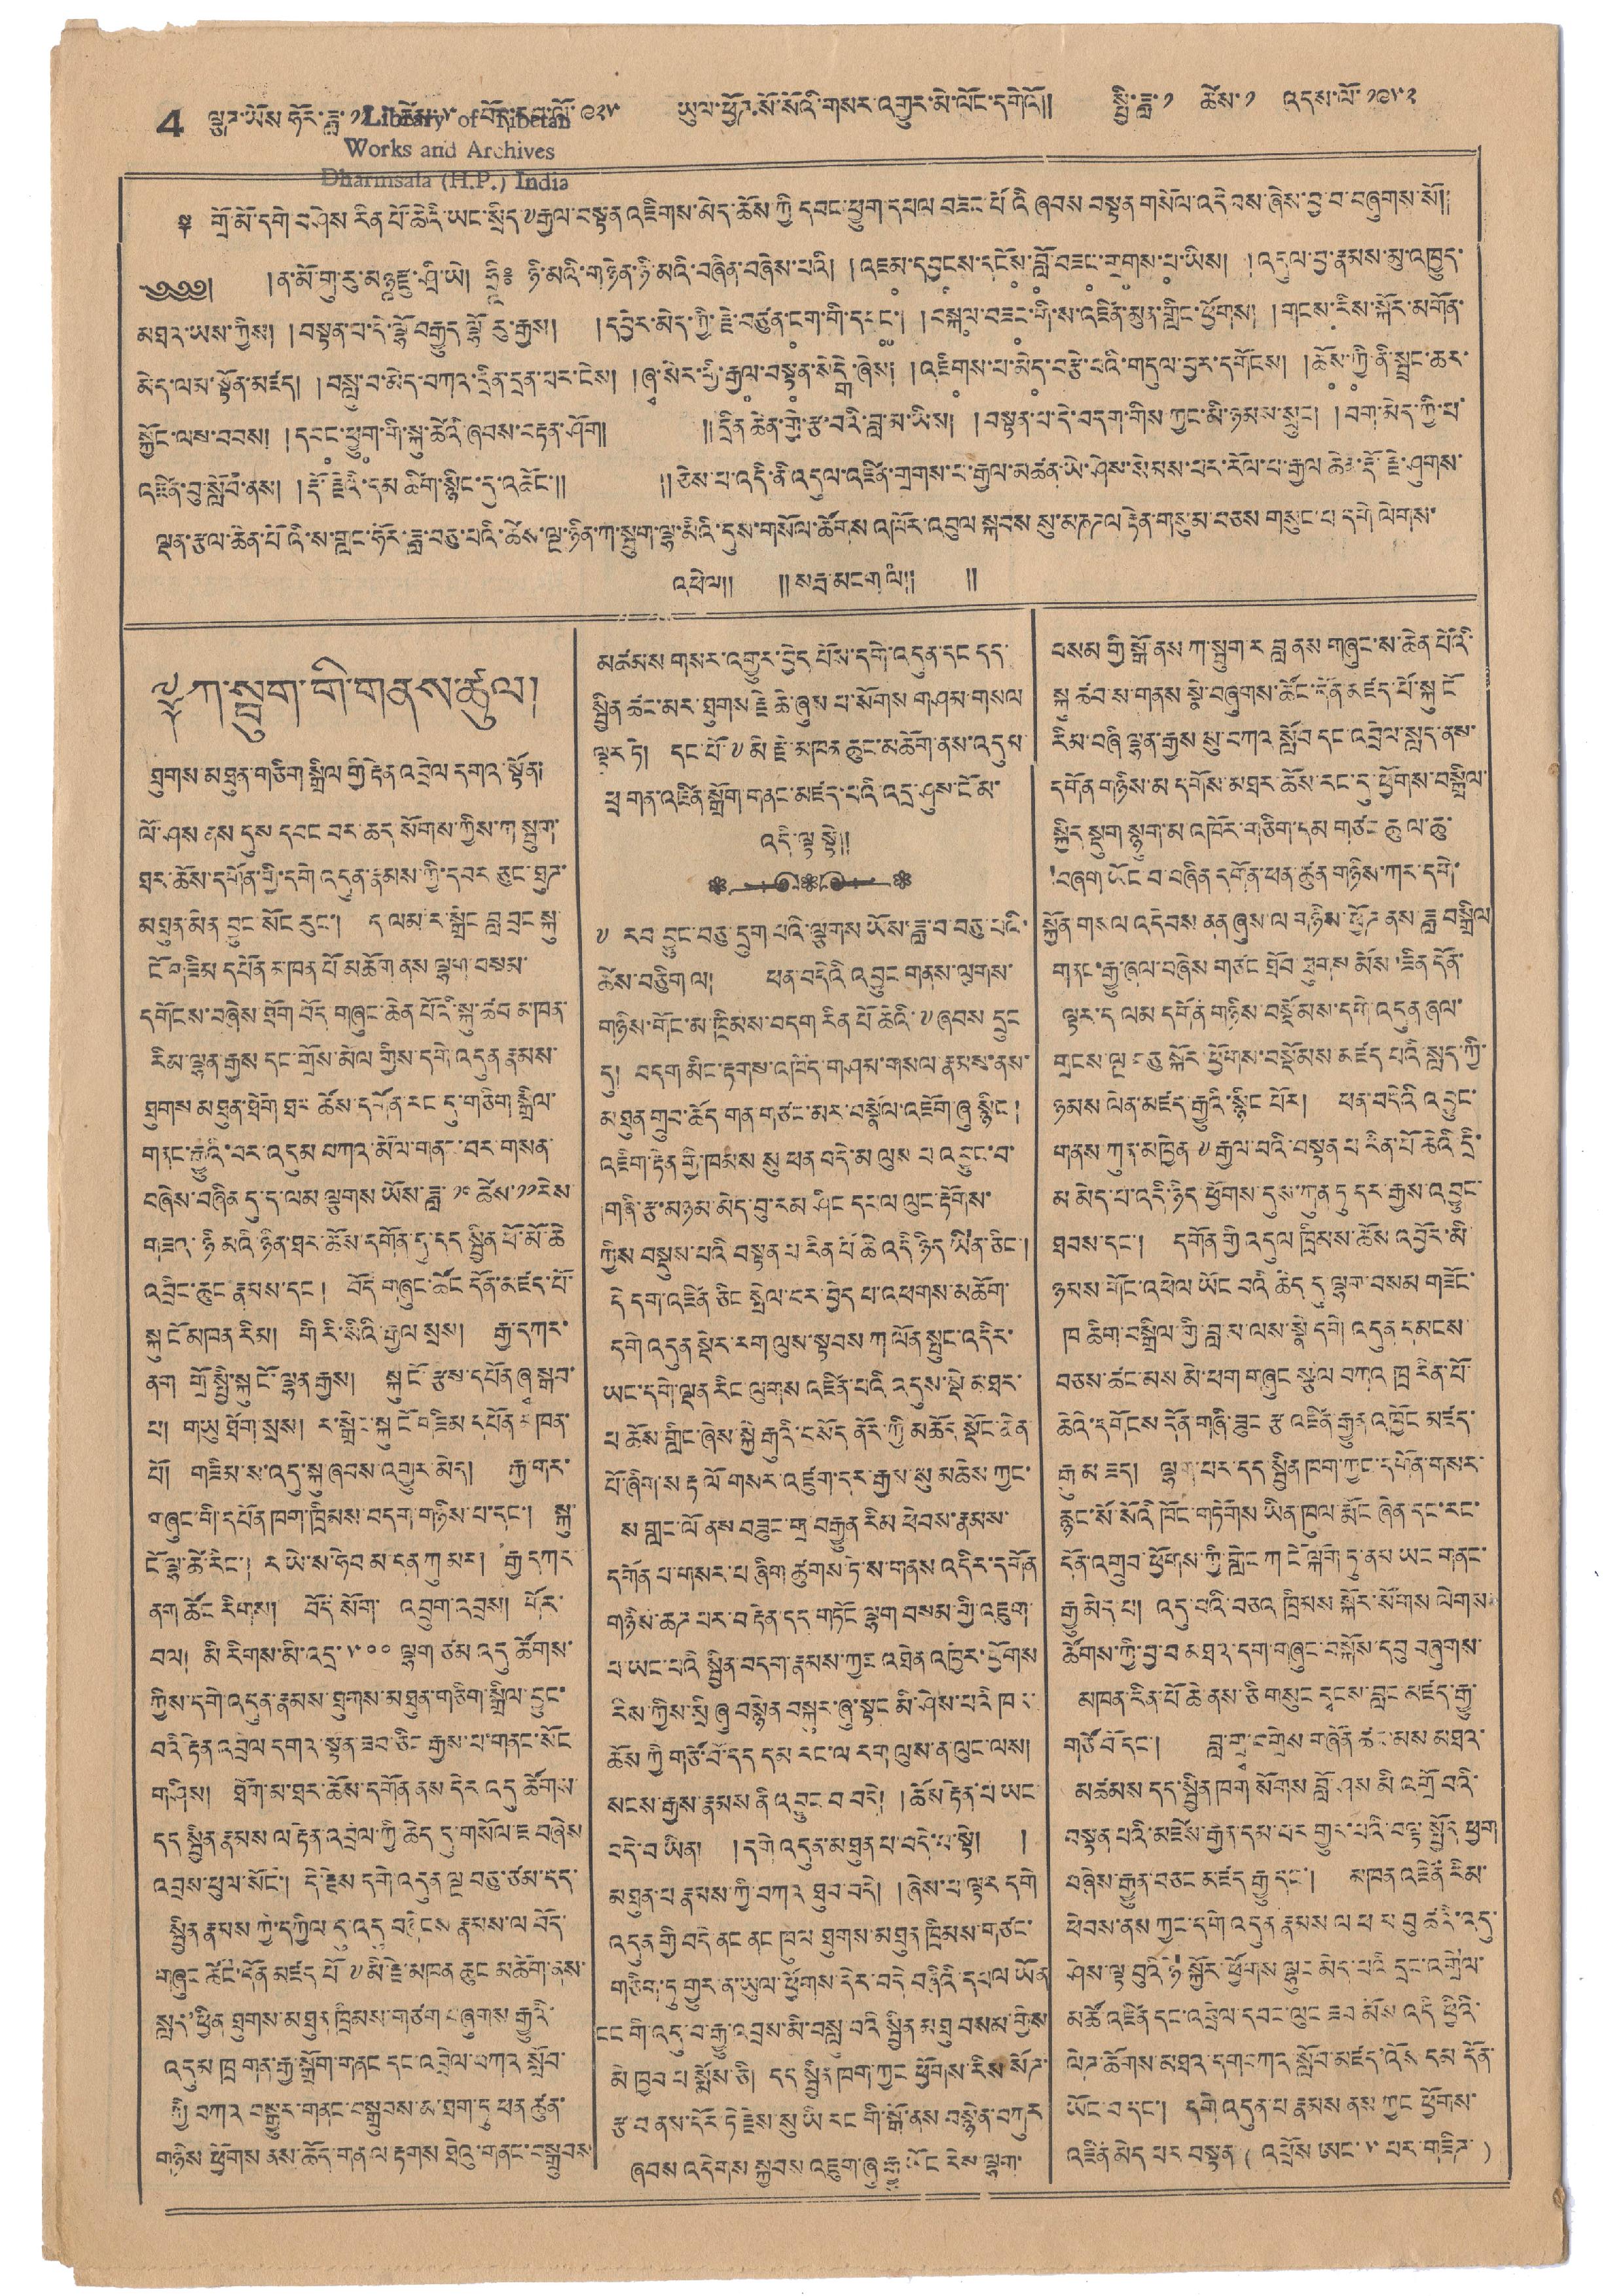4 ལྕཊ་ཡོས་ཧོར་ཟླ་ ༡༡ ཚེས་ ༥ བོད་རབ་ལོ་ ༩༢༥ ཡུལ་ཕྱོཊ སོ་སོའི་གསར་འགྱུར་མེ་ལོང་དགེའོ།། སྤྱི་ཟླ་༡ ཚེས་༡ འདས་ལོ་ ༡༩༥༢
༈ གྲོ་མོ་དགེ་བཤེས་རིན་པོ་ཆེའི་ཡང་སྲིད་༸རྒྱལ་བསྟན་འཇིགས་མེད་ཆོས་ཀྱི་དབང་ཕྱུག་དཔལ་བཟང་པོའི་ཞབས་བསྟན་གསོལ་འདེབས་ཞེས་བྱ་བ་བཞུགས་སོ།།
༄༅༅། །ན་མོ་གུ་རུ་མཉཱརྫུ་ཤྲི་ཡེ། ཧྲཱི༔ ཉི་མའི་གཉེན་ཉི་མའི་བཞིན་བཞེས་པའི། །འཇ༷མ་དབྱ༷ངས་དངོ༷ས་བློ༷་བཟ༷ང་གྲ༷གས་པ༷་ཡིས། །འདུལ་བྱ་རྣམས་མུ་འཁྱུད་
མཐའ་ཡས་ཀྱིས། །བསྟན་པ་དེ་ལྷོ་བརྒྱུད་ལྷོ་རུ་རྒྱས། །དབྱེར་མེད་ཀྱི་རྗེ་བཙུན་ང༷ག་གི་དབ༷ང་། །བསྐ༷ལ་བཟ༷ང་གི་ས་འཛིན་མུན་གླིང་ཕྱོགས། །གངས་རིས་སྐོར་མགོན་
མེད་ལམ་སྟོན་མཛད། །བསླུ་བ་མེད་བཀའ་དྲིན་དྲན་པར་ངེས། །ཞྭ་སེར་གྱི་རྒྱ༷ལ་བསྟ༷ན་སེངྒེ་ཞེས། །འཇི༷གས་པ་མེ༷ད་བརྩེ་པའི་གདུལ་བྱར་དགོངས། །ཆོ༷ས་ཀྱི༷་ནི་སྤྲང་ཆར་
སྐྱོང་ལས་བབས། །དབ༷ང་ཕྱུ༷ག་གི་སྐུ་ཆེའི་ཞབས་བརྟན་ཤོག། །།དྲིན་ཆེན་གྱི་རྩ་བའི་བླ་མ་ཡིས། །བསྟན་པ་དེ་བདག་གིས ཀྱང་མི་ཉམས་སྲུང། །བག་མེད་ཀྱི་པ་
འཛིན་བུ་སློབ་ནས། །རྡོ་རྗེའི་དམ་ཚིག་སྙིང་དུ་འཆོང་།། །།ཅེས་པ་འདི་ནི་འདུལ་འཛིན་གྲགས་པ་རྒྱལ་མཚན་ཡེ་ཤེས་སེམས་པར་རོལ་པ་རྒྱལ་ཆེན་རྡོ་རྗེ་ཤུགས་
ལྡན་རྩལ་ཆེན་པོའི་ས་གླང་ཧོར་ཟླ་བཅུ་པའི་ཚེས་ལྔ་ཉིན་ཀ་སྦུག་ལྷ་མིའི་དུས་གསོལ་ཚོགས་འཁོར་འབུལ སྐབས་སུ་བཎཌལ རྟེན་གསུམ་བཅས་གསུང་པ དགེ ལེགས་
འཕེལ།། །།སརྦ་མངགལཾ།། །།
༈ ཀ་སྦུག་གི་གནས་ཚུལ།
ཐུགས་མཐུན་གཅིག སྒྲིལ གྱི་རྟེན་འབྲེལ དགའ་སྟོན།
ལོ་ཤས ནས དུས དབང བར་ཆད སོགས་ཀྱིས་ཀ སྦུག་
ཐར་ཆོས་དགོན་གྱི་དགེ་འདུན་རྣམས་ཀྱི་དབར ཅུར་ཐུཊ་
མཐུན་མེད བྱུང་སོང་ རུང་། ད་ལམ་ར་སྒྲེང་བླ་བྲང སྐུ་
ངོ་གཟིམ དཔོན་མཁན པོ མཆོག་ནས ལྷག་བསམ་
དགོངས་བཞེས ཐོག་བོད གཞུང་ཆེན པོའི་སྐུ་ཚབ མཁན་
རིམ་ལྷན རྒྱས དང་གྲོས་མོལ གྱིས་དགེ་འདུན རྣམས་
ཐུགས མཐུན་ཐོག་ཐར་ཆོས་དགོན་རང་དུ་གཅིག་སྒྲིལ་
གནང་རྒྱུའི་བར་འདུམ བཀའ་མོལ་གནང་བར་གསན་
བཞེས་བཞིན དུ་ད་ལམ་ལྕགས ཡོས་ཟླ་ ༡༠ ཚེས་ ༡༡ རེས་
གཟའ་ཉི མའི་ཉིན་ཐར་ཆོས་དགོན་དུ་དད སྤྱིན་ཕོ་མོ་ཆེ
འབྲིང་ཆུང རྣམས་དང ། བོད གཞུང་ཚོང དོན་མཛད་པོ་
སྐུ ངོ་ མཁན་རིམ། གི རི་ སིའི་རྒྱལ་སྲས། རྒྱ་དཀར་
ནག གྲོ་སྤྱི་སྐུ ངོ་ལྷན་རྒྱས། སྐུ ངོ་རྩས་དཔོན ཞྭ སྒབ་
པ། གཡུ་ཐོག་སྲས། ར་སྒྲེང་སྐུ ངོ གཟིམ་དཔོན་མཁན།
པོ། གཟིམ་ས་འདུ་སྐུ་ཞབས་འགྱུར་མེད། རྒྱ་གར་
གཞུང་གི་དཔོན་ཁག་ཁྲོམས་བདག་གཉིས་པ་དང་། སྐུ་
ངོ ལྷ་ཚེ་རིང་། ར ཡེ་ས་ཧེབ མ་དན ཀུ མར། རྒྱ་དཀང་
ནག ཚོང་རིགས། བོད སོག་ འབྲུག་འབྲས། གོར་
བལ། མི་རིགས་མི་འདྲ་ ༥༠༠ ལྷག་ཙམ་འདུ ཚོགས་
ཀྱིས་དགེ་འདུན་རྣམས་ཐུགས་མཐུན་གཅིག་སྒྲིལ་བྱུང་
བའི་རྟེན་འབྲེལ དགའ་སྟོན་ཟབ་ཅིང རྒྱས་པ་གནང་སོང
གཤིས། ཐོག་མ་ཐར་ཆོས་དགོན ནས དེར འདུ ཚོགས་
དད སྦྱིན་རྣམས ལ རྟེན་འབྲལ་ཀྱི་ཆེད་དུ་གསོལ་ཇ བཞེས་
འབྲས་ཕུལ་སོང་། དེ་རྗེས་དགེ་འདུན ལྔ བཅུ་ཙམ་དད་
སྦྱིན་རྣམས་ཀྱི་དཀྱིལ དུ་འདུ བཞེངས་རྣམས་ལ བོད་
གཞུང ཚོང་དོན་མཛོད་པོ་༸མི་རྗེ་མཁན ཆུང མཆོག་ནས་
སླར'ཕྱིན ཐུགས་མཐུན ཁྲིམས་གཙག བཞུགས རྒྱུའི་
འདུམ་ཁྲ གན་རྒྱ་སྒྲོག་གནང དང་འབྲེལ་བཀའ སློབ་
ཀྱི བཀའ བསྒྱུར་གནང་བསྒྲུབས་མ་ཐག་ཏུ་ཕན ཚུན་
གཉིས ཕྱོགས ནས་ཆོད་གནལ རྟགས་ཐེའུ་གནང་བསྒྲུབས་
མཚམས གསར་འགྱུར་བྱེད པོས་དགེ་འདུན་དང དད་
སྤྱིན ཚང་མར་ཐུགས་རྗེ ཆེ་ཞུས་པ་སོགས གཤམ་གསལ
ལྟར་ཏེ། དང་པོ་༸མི་རྗེ་མཁན་ཆུང་མཆོག་ནས་འདུམ་
ཕྲ གན་འཛིན་སྒྲོག་གནང་མཛད་པའི་འདྲ་ཤུས་ངོ མ་
འདི་ལྟ་སྟེ།།
༸ རབ བྱུང་བཅུ་དྲུག་པའི་ལྕགས་ཡོས་ཟླ་བ་བཅུ་པའི་
ཆེས་བཅིུག ལ། ཕན་བདེའི་འབྱུང གནས་ལུགས་
གཉིས་གོང་མ་ཁྲིམས་བདག་རིན་པོ ཆེའི་༸ཞབས དྲུང
དུ། བདག མིང་རྟགས་འཁོད་གཤམ་གསལ་རྣམས་ནས་
མཐུན་གྲུབ་ཆོད གན་གཙང་མར་བསྣོལ་འཇོག་ཞུ་སྙིང །
འཇིག་རྟེན་གྱི་ཁམས་ སུ ཕན བདེ་མ་ལུས་པ་འ བྱུང་བ་
གཞི་རྩ་མཉམ་མེད་བུ་རམ་ཤིང དཔ ལ ལུང་རྟོགས་
ཀྱིས བསྡུས་པའི་བསྟན པ་རིན པོ་ཆེ་འདི་ཉིད ཡིན་ཅིང་།
དེ་དག་འཛིན ཅིང སྤེལ་བར་བྱེད་པ་འཕགས་མཆོག་
དགེ་འདུན སྡེར་རག་ལུས་སྟབས་ཀ ལོན་སྤུང་འདིར་
ཡང་དགེ་ལྡན་རིང་ལུགས འཛིན་པའི འདུས་སྡེ མཐར་
པ ཆོས་གླིང་ཞེས་སྐྱེ རྒུའི་བསོད ནོར་ཀྱི་མཆོད་སྡོང་ཆེན་
པོ་ཞིག་ས་རྟ ལོ གསར་འཛུག་དར་རྒྱས་སུ་མཆེས་ཀྱང་
ས་གླང་ལོ ནས བཟུང་གྲ་བརྒྱུན་རིམ་ཕེབས་རྣམས་
དགོན་པ་གསར་པ་ཞིག ཚུགས་ཏེ་ས་གནས་འདིར་དགོན
གཉིས་ཆཊ་པར་བརྟེན་དད གཏོང་ལྷག་བསམ་གྱི་འཇུག་
པ་ཡང་པའི སྦྱིན་བདག་རྣམས་ཀྱང་འཐེན འཁྱེར་ཕྱོགས
རིས་ཀྱིས་སྲི ཞུ བསྙེན་བསྐུར་ཞུ་སྟང མི་ཤེས་པའི་ཁར་
ཆོས་ཀྱི གཙོ་བོ་དད དམ་རང་ལ རག ལུས་ན་ལུང་ལས།
སངས་རྒྱས་རྣམས ནི་འབྱུང་བ བདེ། ཆོས་རྟེན་པ ཡང་
བདེ་བ་ཡིན། །དགེ་འདུན་མཐུན་པ་བདེ་བ་སྟེ། །
མཐུན་པ རྣམས་ཀྱི་བཀའ ཐུབ་བདེ། །ཞེས་པ་ལྟར དགེ
འདུན་གྱི་བདེ་ནང ནང ཁུལ་ཐུགས་མཐུན ཁྲིམས་གཙང་
གཅིག་ཏུ གྱུར་ན་ཡུལ་ཕྱོགས་དེར བཞིའི་དཔལ ཡོན
ངང གི་འདུ་བ་རྒྱུ་འབྲས་མི་བསླུ་བའི སྦྱིན་མཐུ བསམ་གྱིས་
མི ཁྱབ པ སྨོས་ཅི། དད་སྤྱིན་ཁག་ཀྱང ཕྱོགས་རིས་སོཊ་
རྩ་བ ནས་དོར་ཏེ་རྗེས་སུ་ཡི རང གི་སྒོ་ནས བསྙེན་བཀུར་
ཞབས་འདེགས་སྐྱབས་འཇིག་ཞུ་རྒྱུ ཡོང་རེས ལྷག་
བསམ་གྱི སྒོ ནས ཀ་སྦུག་ར བླ ནས་གཞུང་ས་ཆེན་པོའི་
སྐུ ཚབ་ས་གནས་སྣེ་བཞུགས་ཚོང་དོན་མཛད་པོ་སྐུ ངོ་
རིམ་བཞི་ལྷན་རྒྱས་སུ་བཀའ་སློབ་དང་འབྲེལ་སླད་ནས་
དགོན གཉིས་མ དགོས་མཐར་ཆོས་རང་དུ་ཕྱོགས་བསྒྲིལ་
སྐྱིད་སྡུག སྙུག་མ་འཁོར་གཅིག་དམ་གཙང ཆུ ལ་ཆུ་
།བཞག་ཡོང་བ་བཞིན་དགོན་ཕན་ཚུན་གཉིས་ཀར་དགེ་
སྐྱོན་གསལ་འདེབས་ནན་ཞུས་ལ་གཉིས་ཕྱོཊ ནས ཟླ་བསྒྲིལ་
གནང་རྒྱུ་ཞལ་བཞེས་གཙང་ཐོབ་ཐུགས མོས་ཟིན་དོན་
ལྟར་ད ལམ་དགོན གཉིས་བསྡོམས་དགེ་འདུན་ཞལ་
གྲངས་ལྔ བཅུ སྐོར་ཕྱོགས་བསྡོམས་མཛད པའི་སླད་ཀྱི་
ཉམས ལེན་མཛད་རྒྱུའི་སྙིང་པོར། ཕན་བདེའི འབྱུང་
གནས་ཀུན་མཁྱེན་༸རྒྱལ་བའི་བསྟན་པ་རིན་པོ ཆེའི དྲི་
མ མེད་པ་འདི་ཉིད་ཕྱོགས་དུས་ཀུན ཏུ དར་རྒྱས་འབྱུང་
ཐབས་དང་། དགོན་གྱི འདུལ ཁྲིམས་ཆོས འབྱོར་མི་
ཉམས གོང་འཕེལ་ཡོང བའི ཆེད དུ་ལྷག་བསམ་གཟོང་
ཁ ཆིག་བསྒྲིལ་གྱི་བླ་མ་ལས་སྣེ དགེ འདུན དམངས་
བཅས་ཚང་མས་མེ་ཕག གཞུང སྩལ བཀའ ཁྲ རིན་པོ་
ཆེའི་དགོངས དོམ གཞི་ཟུང རྩ་འཛིན་རྒྱུན་འཁྱོང མཛད་
རྒྱུ མ་ཟད། ལྷག་པར་དད་སྤྱིན་ཁག་ཀྱང་དགོན་གསར་
རྙང་སོ་སོའི ཁོང་གཏོགས་ཡིན་ཁུལ་རྨོང ཞེན་དང་རང་
དོན་འགྲུབ་ཕྱོགས་ཀྱི་གླེང ཀ ངོ ལྐོག་ཏུ་ནམ་ཡང་གནང་
རྒྱུ་མེད་པ། འདུ་བའི་བཅའ་ཁྲིམས་སྐོར་སོགས ལེགས་
ཆོགས་ཀྱི་བྱ་བ་མཐའ་དག་གཞུང་བསྐོས་དབུ་བཞུགས་
མཁན་རིན་པོ་ཆེ་ནས་ཅི གསུང དྭངས་བླང་མཛད་རྒྱུ་
གཙོ་བོ་དང་། བླ་གྲྭ་བགྲེས་གཞོན་ཚང་མས མཐའ་
མཚམས་དད་སྤྱིན་ཁག སོགས་བློ་ཤས མི འགྲོ བའི་
བསྟན་པའི་མཛེས་རྒྱན་དམ་པར་གྱུར་པའི་བལྟ་སྤྱོད ཕྱག་
བཞེས་རྒྱུན་བཅང མཛད རྒྱུ དང་། མཁན འཛིན རིམ་
ཕེབས་ནས ཀྱང་དགེ་འདུན་རྣམས་ལ ཕ མ་བུ་ཚའི་འདུ་
ཤེས་ལྟ་བུའི་ཉེ་སྐྱོང་ཕྱོགས་ལྷུང མེད་པའི དྲང་འགྲེལ་
མཚོ་འཛིན དང་འབྲེལ་དབང་ལུང་ཟབ མོས་འདི ཕྱིའི་
ལེཊ་ཆོགས་མཐའ་དག་བཀའ་སློབ་མཛད་འོས དམ་དོན་
ཡོང་བ དང་། དགེ་འདུན་པ་རྣམས ནས ཀྱང ཕྱོགས་
འཛིན་མེད པར བསྟན་ (འཕྲོས་ཨང་ ༥ པར་གཟིཊ་)
